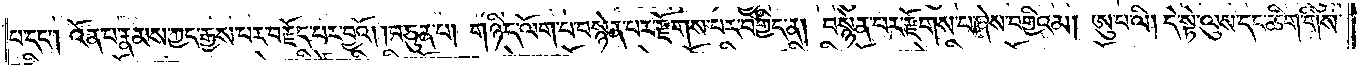པ་དང༌། འོན་པ་རྣམས་ཀྱང་རྒྱས་པར་བརྗོད་པར་བྱའོ། །བཙུན་པ། གཉིད་ལོག་པ་བསྙེན་པར་རྫོགས་པར་བགྱིད་ན། བསྙེན་པར་རྫོགས་པ་ཞེས་བགྱིའམ། ཨུ་པ་ལི། དེ་སྟེ་ལུས་དང་ཚིག་གིས་
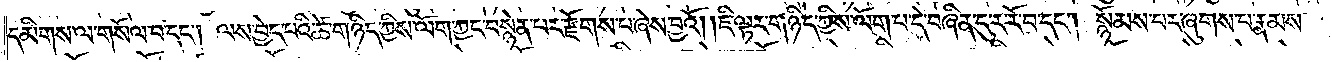དམིགས་ལ་གསོལ་བ་དང༌། ལས་བྱེད་པའི་ཚེ་གཉིད་ཀྱིས་ལོག་ཀྱང་བསྙེན་པར་རྫོགས་པ་ཞེས་བྱའོ། །ཇི་ལྟར་གཉིད་ཀྱིས་ལོག་པ་དེ་བཞིན་དུ་ར་རོ་བ་དང༌། སྙོམས་པར་ཞུགས་པ་རྣམས་
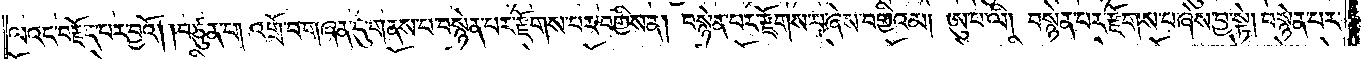ལའང་བརྗོད་པར་བྱའོ། །བཙུན་པ། འགྲོ་བ་གཞན་དུ་གནས་པ་བསྙེན་པར་རྫོགས་པར་བགྱིས་ན། བསྙེན་པར་རྫོགས་པ་ཞེས་བགྱིའམ། ཨུ་པ་ལི། བསྙེན་པར་རྫོགས་པ་ཞེས་བྱ་སྟེ། བསྙེན་པར་
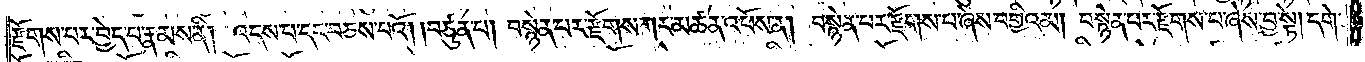རྫོགས་པར་བྱེད་པ་རྣམས་ནི། འདས་པ་དང་བཅས་པའོ། །བཙུན་པ། བསྙེན་པར་རྫོགས་ཀར་མཚན་འཕོས་ན། བསྙེན་པར་རྫོགས་པ་ཞེས་བགྱིའམ། བསྙེན་པར་རྫོགས་པ་ཞེས་བྱ་སྟེ། དགེ་
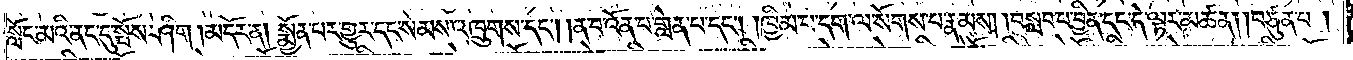སློང་མའི་ནང་དུ་སྤོས་ཤིག །མདོར་ན། སྨྱོན་པར་གྱུར་དང་སེམས་འཁྲུགས་དང༌། །ན་བ་འོན་པ་གླེན་པ་དང༌། །ཁྱིམ་པ་དག་ལ་སོགས་པ་རྣམས། །བསླབ་པ་བྱིན་དང་དེ་ལྟར་མཚན། །བཙུན་པ།
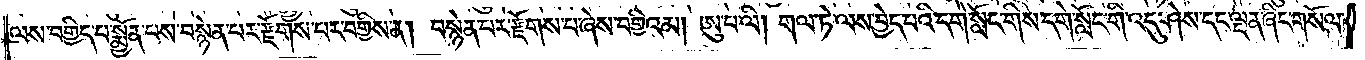ལས་བགྱིད་པ་སྨྱོན་པས་བསྙེན་པར་རྫོགས་པར་བགྱིས་ན། བསྙེན་པར་རྫོགས་པ་ཞེས་བགྱིའམ། ཨུ་པ་ལི། གལ་ཏེ་ལས་བྱེད་པའི་དགེ་སློང་གིས་དགེ་སློང་གི་འདུ་ཤེས་དང་ལྡན་ཞིང་གསོལ་
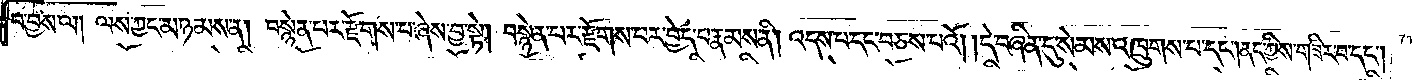བ་བྱས་ལ། ལས་ཀྱང་མ་ཉམས་ན། བསྙེན་པར་རྫོགས་པ་ཞེས་བྱ་སྟེ། བསྙེན་པར་རྫོགས་པར་བྱེད་པ་རྣམས་ནི། འདས་པ་དང་བཅས་པའོ། །དེ་བཞིན་དུ་སེམས་འཁྲུགས་པ་དང༌། ནད་ཀྱིས་གཟིར་བ་དང༌།
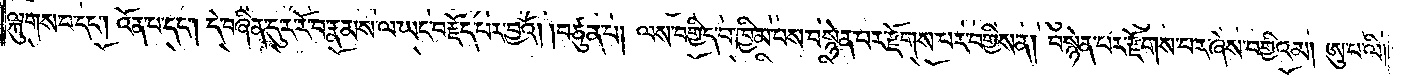ལྐུགས་པ་དང༌། འོན་པ་དང༌། དེ་བཞིན་དུ་ར་རོ་བ་རྣམས་ལ་ཡང་བརྗོད་པར་བྱའོ། །བཙུན་པ། ལས་བགྱིད་པ་ཁྱིམ་པས་བསྙེན་པར་རྫོགས་པར་བགྱིས་ན། བསྙེན་པར་རྫོགས་པར་ཞེས་བགྱིའམ། ཨུ་པ་ལི།
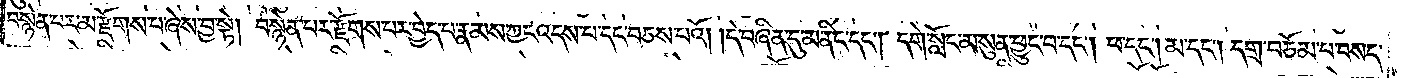བསྙེན་པར་མ་རྫོགས་པ་ཞེས་བྱ་སྟེ། བསྙེན་པར་རྫོགས་པར་བྱེད་པ་རྣམས་ཀྱང་འདས་པ་དང་བཅས་པའོ། །དེ་བཞིན་དུ་མ་ནིང་དང༌། དགེ་སློང་མ་སུན་ཕྱུང་བ་དང༌། ཕ་དང༌། མ་དང༌། དགྲ་བཅོམ་པ་བསད་
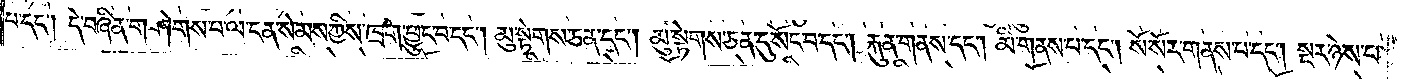པ་དང༌། དེ་བཞིན་གཤེགས་པ་ལ་ངན་སེམས་ཀྱིས་ཁྲག་ཕྱུང་བ་དང༌། མུ་སྟེགས་ཅན་དང༌། མུ་སྟེགས་ཅན་དུ་སོང་བ་དང༌། རྐུན་གནས་དང༌། མི་གནས་པ་དང༌། སོ་སོར་གནས་པ་དང༌། སྔར་ཉེས་པ་
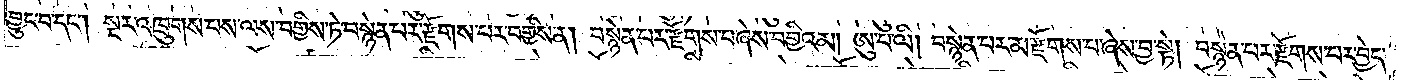བྱུང་བ་དང༌། སྔར་འཁྲུགས་པས་ལས་བགྱིས་ཏེ་བསྙེན་པར་རྫོགས་པར་བགྱིས་ན། བསྙེན་པར་རྫོགས་པ་ཞེས་བགྱིའམ། ཨུ་པ་ལི། བསྙེན་པར་མ་རྫོགས་པ་ཞེས་བྱ་སྟེ། བསྙེན་པར་རྫོགས་པར་བྱེད་
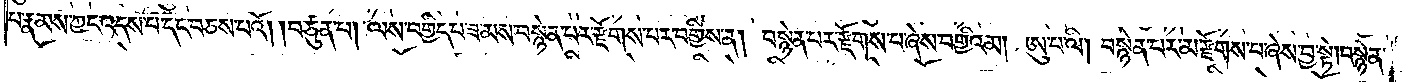པ་རྣམས་ཀྱང་འདས་པ་དང་བཅས་པའོ། །བཙུན་པ། ལས་བགྱིད་པ་ཟ་མས་བསྙེན་པར་རྫོགས་པར་བགྱིས་ན། བསྙེན་པར་རྫོགས་པ་ཞེས་བགྱིའམ། ཨུ་པ་ལི། བསྙེན་པར་མ་རྫོགས་པ་ཞེས་བྱ་སྟེ། བསྙེན་
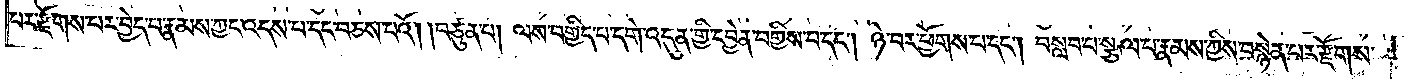པར་རྫོགས་པར་བྱེད་པ་རྣམས་ཀྱང་འདས་པ་དང་བཅས་པའོ། །བཙུན་པ། ལས་བགྱིད་པ་དགེ་འདུན་གྱི་དབྱེན་བགྱིས་པ་དང༌། ཉེ་བར་ཕྱོགས་པ་དང༌། བསླབ་པ་སྩལ་པ་རྣམས་ཀྱིས་བསྙེན་པར་རྫོགས་
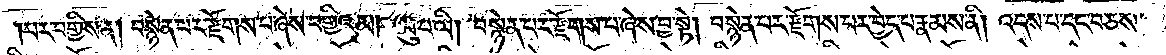།པར་བགྱིས་ན། བསྙེན་པར་རྫོགས་པ་ཞེས་བགྱིའམ། ཨུ་པ་ལི། བསྙེན་པར་རྫོགས་པ་ཞེས་བྱ་སྟེ། བསྙེན་པར་རྫོགས་པར་བྱེད་པ་རྣམས་ནི། འདས་པ་དང་བཅས་
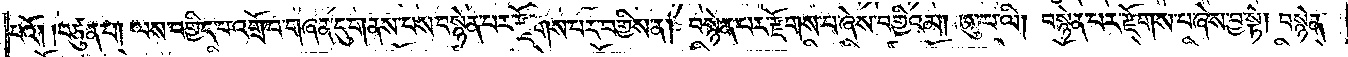པའོ། །བཙུན་པ། ལས་བགྱིད་པ་འགྲོ་བ་གཞན་དུ་གནས་པས་བསྙེན་པར་རྫོགས་པར་བགྱིས་ན། བསྙེན་པར་རྫོགས་པ་ཞེས་བགྱིའམ། ཨུ་པ་ལི། བསྙེན་པར་རྫོགས་པ་ཞེས་བྱ་སྟེ། བསྙེན་
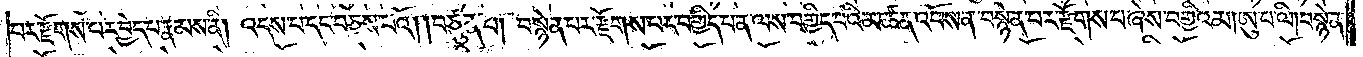པར་རྫོགས་པར་བྱེད་པ་རྣམས་ནི། འདས་པ་དང་བཅས་པའོ། །བཙུན་པ། བསྙེན་པར་རྫོགས་པར་བགྱིད་པ་ན་ལས་བགྱིད་པའི་མཚན་འཕོས་ན་བསྙེན་པར་རྫོགས་པ་ཞེས་བགྱིའམ། ཨུ་པ་ལི། བསྙེན་
